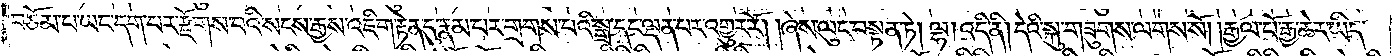བཅོམ་པ་ཡང་དག་པར་རྫོགས་པའི་སངས་རྒྱས་འཇིག་རྟེན་དུ་རྣམ་པར་གྲགས་པའི་སྒྲ་དང་ལྡན་པར་འགྱུར་རོ། །ཞས་ལུང་བསྟན་ཏེ། ལྷ། འདི་ནི། དེའི་སྐུ་གཟུགས་ལགས་སོ། །རྒྱལ་པོ་རྒྱ་ཆེར་ཡིད་
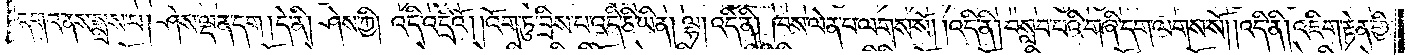དགའ་ནས་སྨྲས་པ། ཤེས་ལྡན་དག །དེ་ནི། ཤེས་ཀྱི། འདི་འདྲིའོ། །འོག་ཏུ་བྲིས་པ་འདི་ཅི་ཡིན། ལྷ། འདི་ནི། ཁས་ལེན་པ་ལགས་སོ། །འདི་ནི། བསླབ་པའི་གཞི་དག་ལགས་སོ། །འདི་ནི། འཇིག་རྟེན་གྱི་
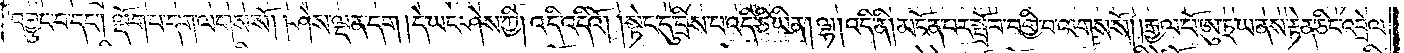དབྱུང་བ་དང༌། ལྡོག་པ་དག་ལགས་སོ། །ཤེས་ལྡན་དག །དེ་ཡང་ཤེས་ཀྱི། འདི་འདིའོ། །སྟེང་དུ་བྲིས་པ་འདི་ཅི་ཡིན། ལྷ། འདི་ནི། མངོན་པར་སྤྲོ་བ་བགྱི་བ་ལགས་སོ། །རྒྱལ་པོ་ཨུ་ཏྲ་ཡ་ནས་རྟེན་ཅིང་འབྲེལ་
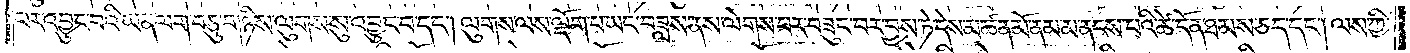པར་འབྱུང་བའི་ཡན་ལག་བཅུ་གཉིས་ལུགས་སུ་འབྱུང་བ་དང༌། ལུགས་ལས་ལྡོག་པ་ཡང་བཟླས་ནས་ལེགས་པར་བཟུང་བར་བྱས་ཏེ་དེས་མཚན་མོ་ནམ་མ་ནངས་པའི་ཚེ་དོན་ཐམས་ཅད་དང༌། ལས་ཀྱི་
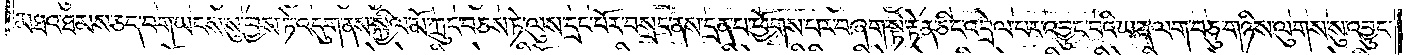མཐའ་ཐམས་ཅད་བག་ཡངས་སུ་བྱས་ཏེ་འདུག་ནས་སྐྱིལ་མོ་ཀྲུང་བཅས་ཏེ་ལུས་དྲང་པོར་བསྲང་ནས་དྲན་པ་ཕྱོགས་པར་བཞག་སྟེ་རྟེན་ཅིང་འབྲེལ་བར་འབྱུང་བའི་ཡན་ལག་བཅུ་གཉིས་ལུགས་སུ་འབྱུང་
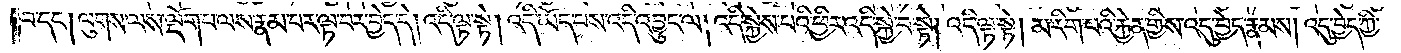བ་དང༌། ལུགས་ལས་ལྡོག་པ་ལས་རྣམ་པར་ལྟ་བར་བྱེད་དེ། འདི་ལྟ་སྟེ། འདི་ཡོད་པས་འདི་འབྱུང་ལ། འདི་སྐྱེས་པའི་ཕྱིར་འདི་སྐྱེ་བ་སྟེ། འདི་ལྟ་སྟེ། མ་རིག་པའི་རྐྱེན་གྱིས་འདུ་བྱེད་རྣམས། འདུ་བྱེད་ཀྱི་
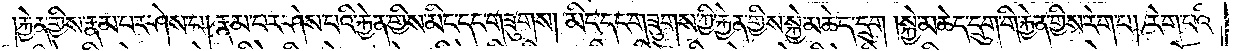རྐྱེན་གྱིས་རྣམ་པར་ཤེས་པ། རྣམ་པར་ཤེས་པའི་རྐྱེན་གྱིས་མིང་དང་གཟུགས། མིང་དང་གཟུགས་ཀྱི་རྐྱེན་གྱིས་སྐྱེ་མཆེད་དྲུག །སྐྱེ་མཆེད་དྲུག་གི་རྐྱེན་གྱིས་རེག་པ། རེག་པའི་
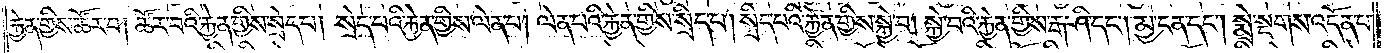རྐྱེན་གྱིས་ཚོར་བ། ཚོར་བའི་རྐྱེན་གྱིས་སྲེད་པ། སྲེད་པའི་རྐྱེན་གྱིས་ལེན་པ། ལེན་པའི་རྐྱེན་གྱིས་སྲིད་པ། སྲིད་པའི་རྐྱེན་གྱིས་སྐྱེ་བ། སྐྱེ་བའི་རྐྱེན་གྱིས་རྒ་ཤི་དང༌། མྱ་ངན་དང༌། སྨྲེ་སྔགས་འདོན་པ་
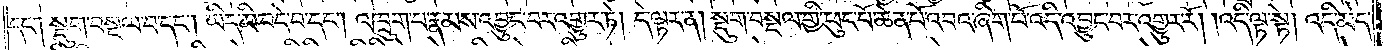དང༌། སྡུག་བསྔལ་བ་དང༌། ཡིད་མི་བདེ་བ་དང༌། འཁྲུག་པ་རྣམས་འབྱུང་བར་འགྱུར་ཏེ། དེ་ལྟར་ན། སྡུག་བསྔལ་གྱི་ཕུང་པོ་ཆེན་པོ་འབའ་ཞིག་པོ་འདི་འབྱུང་བར་འགྱུར་རོ། །འདི་ལྟ་སྟེ། འདི་མེད་
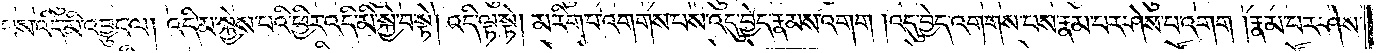པས་འདི་མི་འབྱུང་ལ། འདི་མ་སྐྱེས་པའི་ཕྱིར་འདི་མི་སྐྱེ་བ་སྟེ། འདི་ལྟ་སྟེ། མ་རིག་པ་འགགས་པས་འདུ་བྱེད་རྣམས་འགག །འདུ་བྱེད་འགགས་པས་རྣམ་པར་ཤེས་པ་འགག །རྣམ་པར་ཤེས་
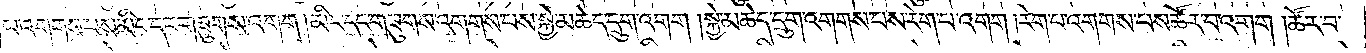པ་འགགས་པས་མིང་དང་གཟུགས་འགག །མིང་དང་གཟུགས་འགགས་པས་སྐྱེ་མཆེད་དྲུག་འགག །སྐྱེ་མཆེད་དྲུག་འགགས་པས་རེག་པ་འགག །རེག་པ་འགགས་པས་ཚོར་བ་འགག །ཚོར་བ་
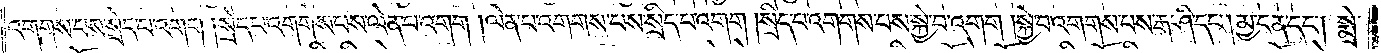འགགས་པས་སྲེད་པ་འགག །སྲེད་པ་འགགས་པས་ལེན་པ་འགག །ལེན་པ་འགགས་པས་སྲིད་པ་འགག །སྲིད་པ་འགགས་པས་སྐྱེ་བ་འགག །སྐྱེ་བ་འགགས་པས་རྒ་ཤི་དང༌། མྱ་ངན་དང༌། སྨྲེ་
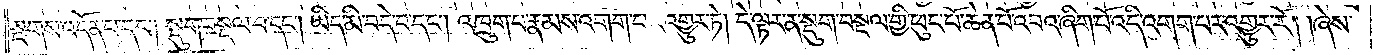སྔགས་འདོན་པ་དང༌། སྡུག་བསྔལ་བ་དང༌། ཡིད་མི་བདེ་བ་དང༌། འཁྲུག་པ་རྣམས་འགག་པར་འགྱུར་ཏེ། དེ་ལྟར་ན་སྡུག་བསྔལ་གྱི་ཕུང་པོ་ཆེན་པོ་འབའ་ཞིག་པོ་འདི་འགག་པར་འགྱུར་རོ། །ཞེས་
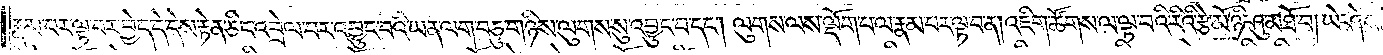རྣམ་པར་ལྟར་བར་བྱེད་དེ་དེས་རྟེན་ཅིང་འབྲེལ་བར་འབྱུང་བའི་ཡན་ལག་བཅུ་གཉིས་ལུགས་སུ་འབྱུང་བ་དང༌། ལུགས་ལས་ལྡོག་པ་ལ་རྣམ་པར་ལྟ་བ་ན། འཇིག་ཚོགས་ལ་ལྟ་བའི་རིའི་རྩེ་མོ་ཉི་ཤུ་མཐོ་བ། ཡེ་ཤེས་
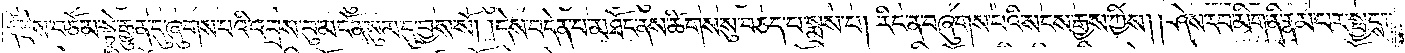རྡོ་རྗེས་བཅོམ་སྟེ་རྒྱུན་དུ་ཞུགས་པའི་འབྲས་བུ་མངོན་སུམ་དུ་བྱས་སོ། །དེས་བདེན་པ་མཐོང་ནས་ཚིགས་སུ་བཅད་པ་སྨྲས་པ། རིང་ན་བཞུགས་པའི་སངས་རྒྱས་ཀྱིས། ཤེས་རབ་མིག་ནི་རྣམ་པར་སྦྱངས༎
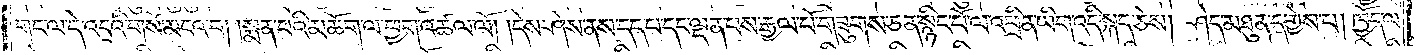གང་ལ་དེ་འདྲའི་གསོ་མངའ་བ། །སྨན་པའི་མཆོག་ལ་ཕྱག་འཚལ་ལོ། །དེས་ཤེས་ནས་དད་པ་དང་ལྡན་པས་རྒྱལ་པོ་གཟུགས་ཅན་སྙིང་པོ་ལ་འཕྲིན་ཡིག་འདི་སྐད་ཅེས། ཤེད་མཐུན་དགྱེས་པ། ཁྱོད་ལ་
